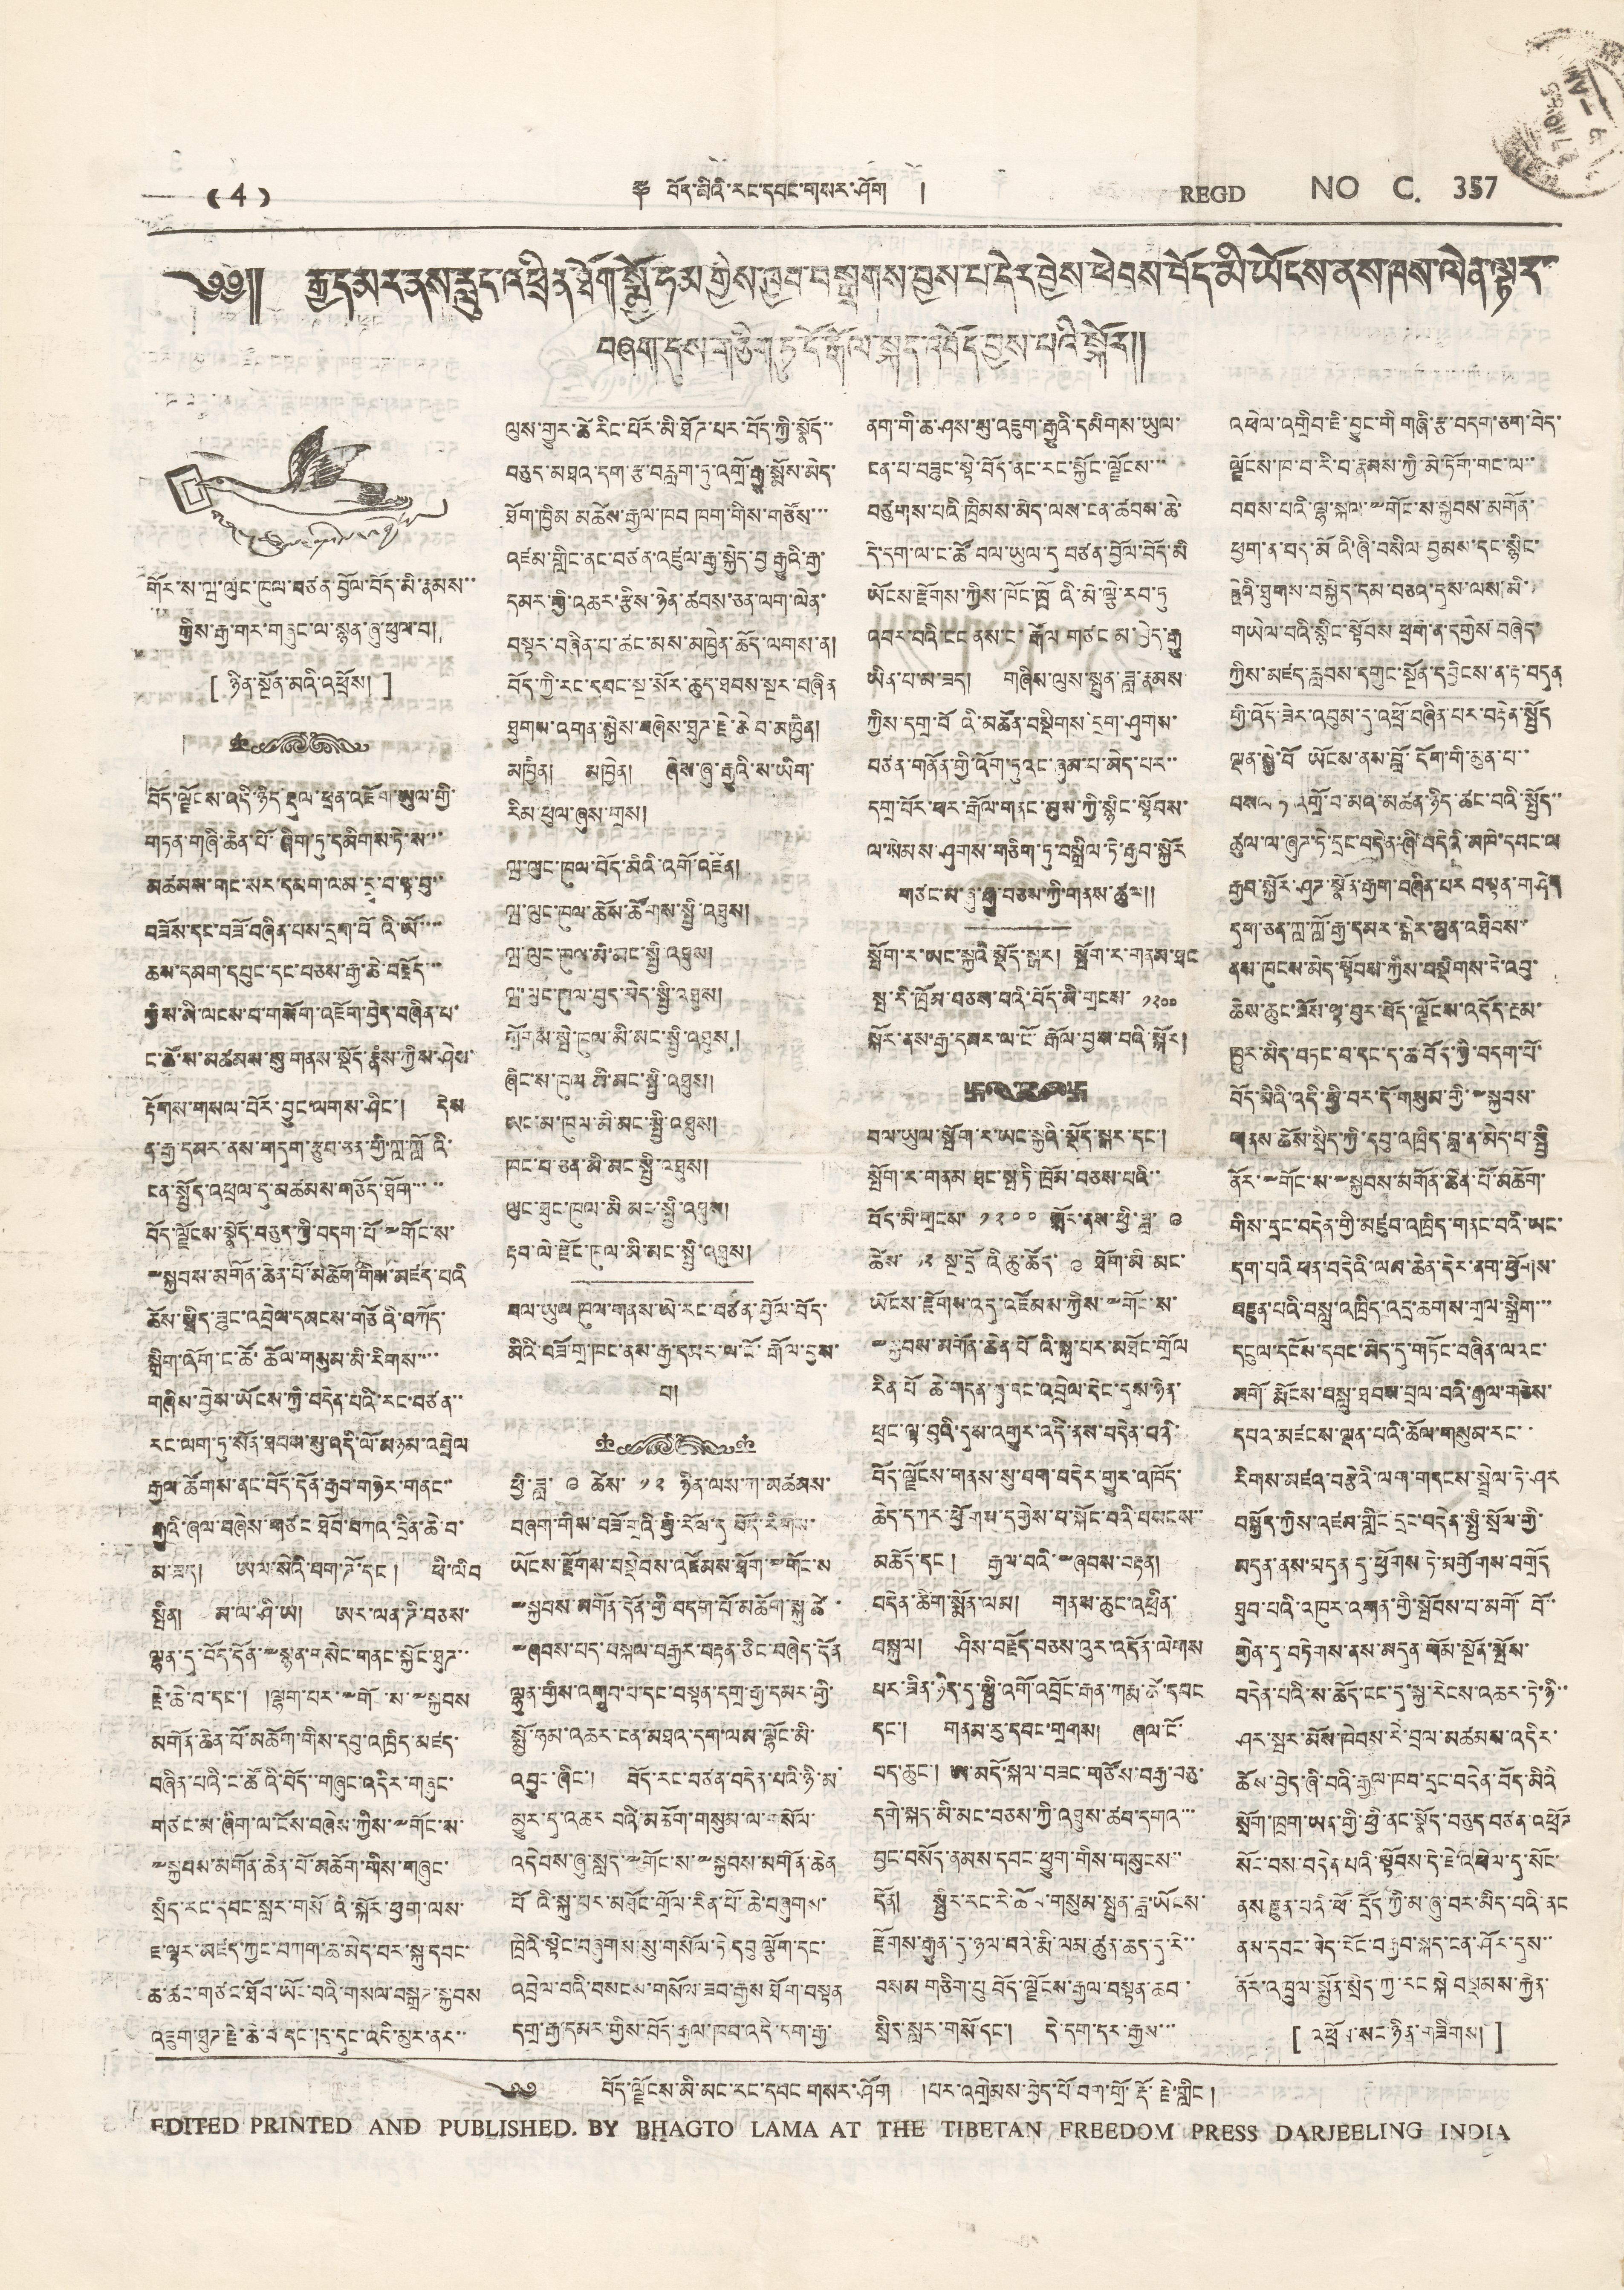(( 4 )) ༈ བོད་མིའི་རང་དབང་གསར་ཤོག ། REGD NO C. 357
༄༅།། རྒྱ་དམར་ནས་རླུང་འཕྲིན་ཐོག་སྨྱོ་ཧམ་གྱེས་ཁྱབ་བསྒྲགས་བྱས་པ་དེར་བྱེས་ཕེབས་བོད་མི་ཡོངས་ནས་ཁས་ལེན་ལྟར་
བཞག་དུས་གཅིག་ཏུ་ངོ་རྒོལ་སྐད་འབོད་བྱས་པའི་སྐོར།།
གནས་ཚུལ་སྤེལ་འབྱོར།
གོར་ས་ཝ་ལུང་ཁུལ་བཙན་བྱོལ་བོད་མི་རྣམས་་
གྱིས་རྒྱ་གར་གཞུང་ལ་སྙན་ཞུ་ཕུལ་བ།།
[ ཉིན་སྔོན་མའི་འཕྲོས། ]
བོད་ལྗོངས་འདི་ཉིད་རྡུལ་ཕྲན་འཇོག་ཡུལ་གྱི་
གཏན་གཞི་ཆེན་པོ་ཞིག་ཏུ་དམིགས་ཏེ་ས་་་
མཚམས་གང་སར་དམག་ལམ་དྲུ་བ་ལྟ་བུ་་
བཟོས་དང་བཟོ་བཞིན་པས་དྲག་པོའི་ཡོ་་་་
ཆས་དམག་དཔུང་དང་བཅས་རྒྱ་ཆེ་བརྗོད་་་
ཀྱིས་མི་ལངས་པ་གསོག་འཇོག་བྱེད་བཞིན་པ་
ང་ཚོ་ས་མཚམས་སུ་གནས་སྡོད་རྣཾས་ཀྱིས་ཤེས་
རྟོགས་གསལ་པོར་བྱུང་ལགས་ཤིང་། དེས
ན་རྒྱ་དམར་ནས་གདུག་རྩུབ་ཅན་གྱི་ཀློ་ཀློའི་
ང་སྤྱོད་འཕྲལ་དུ་མཚམས་གཅོད་ཐོག་་་་་
བོད་ལྗོངས་སྣོད་བཅུད་ཀྱི་བདག་པོ་༸གོང་ས་
༸སྐྱབས་མགོན་ཆེན་པོ་མཆོག་གིས་མཛད་པའི
ཆོས་སྲིད་ཟུང་འབྲེལ་དམངས་གཙོའི་བཀོད་
སྒྲིག་འོག་ང་ཚོ་ཆོལ་གསུམ་མི་རིགས་་་་
གཞིས་བྱེས་ཡོངས་ཀྱི་བདེན་པའི་རང་བཙན་་
རང་ལག་ཏུ་སོན་ཐབས་སུ་འདི་ལོ་མཉམ་འབྲེལ
རྒྱལ་ཚོགས་ནང་བོད་དོན་རྒྱབ་གཉེར་གནང་་
རྒྱུའི་ཞལ་བཞེས་གཙང་ཐོབ་བཀའ་དྲིན་ཆེ་བ་
མ་ཟད། ཨལ་སེའི་བག་ཌོ་དང་། ཕི་ལིབ
སྦིན། མ་ལ་ཤི་ཡ། ཨར་ལན་ཌི་བཅས་
ལྷན་དུ་བོད་དོན་༸སྙན་གསེང་གནང་སྐྱོང་ཐུཌ་་
རྗེ་ཆེ་བ་དང་། །ལྷག་པར་༸གོང་ས་༸སྐྱབས
མགོན་ཆེན་པོ་མཆོག་གིས་དབུ་འཁྲིད་མཛད་
བཞིན་པའི་ང་ཚོའི་བོད་་གཞུང་འདིར་གཞུང་
གཙང་མ་ཞིག་ལ་ངོས་བཞེས་ཀྱིས་༸གོང་ས་
༸སྐྱབས་མགོན་ཆེན་པོ་མཆོག་གིས་གཞུང་
སྲིད་རང་དབང་སླར་གསོའི་སྐོར་ཕྱག་ལས་
ཇ་ལྟར་མཛད་ཀྱང་བཀག་ཆ་མེད་པར་སྐུ་དབང་
ཆ་ཚང་གཙང་ཐོབ་ཡོང་བའི་གསལ་བསྒྲཌ་སྐྱབས
འཇུག་ཐུཌ་རྗེ་ཆེ་བ་དང་།ད་དུང་འདི་མུར་ནར་་
ལུས་གྱུར་ཚེ་རིང་པོར་མི་ཐོཌ་པར་བོད་ཀྱི་སྣོད་་
བཅུད་མཐའ་དག་རྩ་བརླག་ཏུ་འགྲོ་རྒྱུ་སྨོས་མེད་
ཐོག་ཁྱིམ མཚེས་རྒྱལ་ཁབ ཁག་གིས་གཙོས་་་
འཛམ་གླིང་ནང་བཙན་འཛུལ་རྒྱ་སྐྱེད་བྱ རྒྱུའི་རྒྱ་
དམར་གྱི་མཆར་རྩིས་ཉེན་ཚབས་ཅན་ལག་ལེན་
བསྟར་བཞིན་པ་ཚང་མས་མཁྱེན་ཆོད་ལགས་ན།
བོད་ཀྱི་རང་དབང་སྔ་སོར་ཆུད་ཐབས་སྔར་བཞིན
ཐུགས་འགན་སྐྱེས་བཞེས་ཐུཌ་རྗེ་ཆེ་བ་མཁྱེན།
མཁྱེན། མཁྱེན། ཞེས་ཞུ་རྒྱུའི་ས་ཡིག་
རིམ་ཕུལ་ཞུས་གྲས།
ཝ་ལུང་ཁུལ་བོད་མིའི་འགོ་འཛིན།
ཝ་ལུང་ཁུལ་ཆོས་ཚོགས་སྤྱི་འཐུས།
ལྦ་ལུང་ཁུལ་མི་མང་སྤྱི་འཐུས།
ཝ་ལུང་ཁུལ་བྱེད་མེད་སྤྱི་འཐུས།
གྲོགས་སྤེ་ཁུལ་མི་མང་སྤྱི་འཐུས།
ཞིང་ས་ཁུལ མི་མང་སྤྱི་འཐུས།
ཨང་མ་ཁུལ་མི་མང་སྤྱི་འཐུས།
ཁང་བ་ཅན་མི་མང་སྤྱི་འཐུས།
ལུང་ཐུང་ཁུལ་མི མང་སྤྱི་འཐུས།
རྟབ་ལེ་རྫོང་ཁུལ་མི་མང་སྤྱི་འཐུས།
བལ་ཡུལ་ཁུལ་གནས་ཡ་རང་བཙན་བྱོལ་བོད་
མིའི་བཟོ་གྲ་ཁང་ནས་རྒྱ་དམར་ལ་ངོ་རྒོལ་བྱས་
པ།
ཕྱི་ཟླ་ ༩ ཚེས་ ༡༢ ཉིན་ལས་ཀ་མཚམས་
བཞག་གིས་བཟོ་གྲའི་ཕྱི་རོལ་དུ བོད་རིགས་
ཡོངས་རྫོགས་བསྡེབས་འཛོམས་ཐོག་ ༸གོང་ས
༸སྐྱབས་མགོན་དོན་གྱི་བདག་པོ་མཆོག་སྐུ་ཚེ་
༸ཞབས་པད་བསྐལ་བརྒྱར་བརྟན་ཅིང་བཞེད་དོན
ལྷུན་གྱིས་འགྲུབ་པ་དང་བསྟན་དགྲ་རྒྱ་དམར་གྱི་
སྨྱོ་ཧམ་འཆར་ངན་མཐའ་དག་ལམ་ལྷོང་མི་
འབྱུང་ཞིང་། བོད་རང་བཙན་བདེན་པའི་ཉི་མ་
མྱུར་དུ་འཆར བའི་མཆོག་གསུམ་ལ་གསོལ་
འདེབས་ཞུ་སླད་༸གོང་ས་༸སྐྱབས་མགོན་ཆེན་
པོའི་སྐུ་པར་མཐོང་གྲོལ་རིན་པོ་ཆེ་བཞུགས་
ཁྲིའི་སྟེང་བཞུགས་སུ་གསོལ་ཏེ་དབུ ལྕོག་དང་
འབྲེལ་བའི་བསངས་གསོལ་ཟབ་རྒྱས ཐོག་བསྟན
དགྲ་རྒྱ་དམར་གྱིས་བོད་རྒྱལ་ཁབ་འདི་དག་རྒྱ་
ནག་གི་ཆ་ཤས་སུ་འཇུག་རྒྱུའི་དམིགས་ཡུལ་
ངན་པ་བཟུང་སྟེ་བོད་ནང་རང་སྐྱོང་ལྗོངས་་་
བཙུགས་པའི་ཁྲིམས་མེད་ལས་ངན་ཚབས་ཆེ་
དེ་དག་ལ་ང་ཚོ་བལ་ཡུལ་དུ བཙན་བྱོལ་བོད་མི
ཡོངས་རྫོགས་ཀྱིས་ཁོང་ཁྲོའི་མེ་ལྕེ་རབ་ཏུ
འབར་བའི་ངང་ནས་ང་རྒོལ གཙང་མ་བྱེད་རྒྱུ
ཡིན་པ་མ་ཟད། གཞིས་ལུས་སྤུན་ཟླ་རྣམས་
ཀྱིས་དགྲ་བོའི་མཚོན་བསྡིགས དྲག་ཤུགས་
བཙན་གནོན་གྱི་འོག་ཏུའང་ཞུམ་པ་མེད་པར་་
དགྲ་པོར་ཕར་རྒོལ་གནང་མུས་ཀྱི་སྙིང་སྟོབས་
ལ་སེམས་ཤུགས་གཅིག་ཏུ་བསྒྲིལ་ཏེ་རྒྱབ་སྐྱོར
གཙངས་ཞུ་རྒྱུ་བཅས་ཀྱི་གནས་ཚུལ།།
སྤོག་ར་ཡང་སྐྱའི་སྡོད་སྒར། སྤོག་ར་གནས་ཐང
སྤ་རི་ཁྲོམ་བཅས་པའི་བོད་མི་གྲངས་ ༡༢༠༠
སྐོར་ནས་རྒྱ་དམར་ལ་ངོ་རྒོལ་བྱས་པའི་སྐོར།
བལ་ཡུལ་སྤོག་ར་ཡང་སྐྱའི་སྡོད་སྒར་དང་།
སྤོག་ར་གནས་ཐང་སྦ་ཏི་ཁྲོམ་བཅས་པའི་་
བོད་མི་གྲངས་ ༡༢༠༠ སྤོར་ནས་ཕྱི་ཟླ་ ༩
ཚེ་ས་ ༡༢ སྔ་དྲོའི་ཆུ་ཚོད་ ༩ ཐོག་མི་མང་
ཡོངས་རྫོགས་འདུ་འཛོམས་ཀྱིས་༸གོང་ས་
༸སྐྱབས་མགོན་ཆེན་པོའི་སྐུ་པར་མཐོང་གྲོལ
རིན་པོ་ཆེ་གདན་ཞུ་དང་འབྲེལ་དེང་དུས་ཉེན་
ཕྲང་ལྟ་བུའི་དུས་འགྱུར་འདི་ནས་བདེན་བའི་
བོད་ལྗོངས་གནས་སུ་བག་བདེར་གྱུར་འཁོད་
ཆེད་དཀར་ཕྱོགས་དགྱེས་པ་སྐོང་བའི་བསངས་་
མཆོད་དང་། རྒྱལ་བའི་༸ཞབས་བརྟན།
བདེན་ཚིག་སྨོན་ལམ། གནས་ཆུང་འཕྲིན་
བསྐུལ། ཤིས་བརྗོད་བཅས་འུར་འདོན་ལེགས
པར་ཟིན་ཉིད་དུ་སྤྱི་འགོ་འབྲོང་རྒན་ཀརྨ་ཚེ་དབང
དང་། གནམ་རུ་དབང་གྲགས། ཞལ་ངོ་
པད་ཆུང་། ཨ་མདོ་སྐལ་བཟང་གཙོས་བརྒྱ་བཅུ་
དགེ་སྐད་མི་མང་བཅས་ཀྱི་འཐུས་ཚབ་དགའ་་་
བྱང་བསོད་ནམས་དབང་ཕྱུག་གིས་གསུངས་་
དོན། སྤྱིར་རང་རེ་ཆོལ་གསུམ་སྤུན་ཟླ་ཡོངས་
རྫོགས་རྒྱུན་དུ་ཉལ བའི་རྨི་ལམ་ཚུན་ཆད་དུ་རེ་་
བསམ གཅིག་པུ བོད་ལྗོངས་རྒྱལ་བསྟན་ཆབ་
སྲིད་སླར་གསོ་དང་། དེ་དག་དར་རྒྱས་་་
འཕེལ་འགྲིབ་ཇི་བྱུང་གི གཞི་རྩ་བདག་ཅག་བེད་
ལྗོངས་ཁ་བ་རི་བ་རྣམས་ཀྱི་མེ་ཏེག་གང་ལ་་
བབས་པའི་ལྷ་སྐལ་༸གོང་ས་སྐྱབས་མགོན་
ཕྱག་ན་པད་མོའི་ཞི་བསིལ བྱམས་དང་སྙིང་
རྗེའི་ཐུགས་བསྐྱེད་དམ་བཅའ་དུས་ལས་མི་
གཡེལ་བའི་སྙིང་སྙོབས ཕྲག་ན་དགྱེས བཞེད་
ཀྱིས་མཛད་རླབས་དགུང་སྔོན་དབྱིངས་ན་རྟ་བདུན
གྱི་འོད་ཟེར་འབུམ་དུ་འཕྲོ་བཞིན་པར་བརྟེན་སྤྱོད
ལྡན་སྐྱེ་བོ ཡོངས་ནས་བློ་དོག་གི་མུན་པ་་
བསལ་ཏེ་འགྲོ་བ་མའི་མཚན་ཉིད་ཚང་བའི་སྤྱོད་་
ཚུལ་ལ་ཞུཌ་ཏེ་དྲང་བདེན་ཞི་བདེའི་མཁེ་དབང་ལ
རྒྱབ་སྐྱོར་ཤུཌ་སྣོན་རྒྱབ་བཞིན་པར བསྟན་གཤེད་
དུག་ཅན་ཀླ་ཀློ་རྒྱ་དམར་སྒེར་མུན་འཐིབས་
ནས་ཁུངས་མེད་སྟོབས་ཀྱིས་བསྡིགས་ངེ་འབུ་
ཆེས་ཆུང་ཟོས་ལྟ་བུར་བོད་ལྗོངས་འདོད་རྔམ་
ཁྱུར་མིད་བཏང་བ་དང་ད་ཆ་བོད་ཀྱི་བདག་པོ་
བོད་མིའི་འདི་ཕྱི་བར་དོ་གསུམ་གྱི་༸སྐྱབས་
གནས་ཆོས་སྲིད་ཀྱི་དབུ་འཁྲིད་བླ་ན་མེད་པ་སྤྱི
ནོར་༸གོང་ས་༸སྐྱབས་མགོན་ཆེན་པོ་མཆོག་
གིས་དྲང་བདེན་གྱི་མཛུབ་འཁྲིད་གནང་བའི་ཡང་
དག་པའི ཕན་བདེའི་ལམ་ཆེན་དེར་ནག་ཕྱོགས་
བརྫུན་པའི་བསླུ་འཁྲིད་འདྲ་ཆགས་གྲལ་སྒྲིག་་་
དངུལ་དངོས་དབང་མེད་དུ་གཏོང་བཞིན་ལའང་
མགོ་རྨོངས་བསླུ་ཐབས་བྲལ་བའི་རྒྱལ་གཅེས་
དཔའ་མཛངས་ལྡན་པའི་ཆོལ་གསུམ་རང་་
རིགས་མཛའ་བརྩེའི་ལག་གདངས་སྤྲེལ་ཏེ་ཤར
བསྐྱོད་ཀྱིས་འཛམ་གླིང་དྲང་བདེན་སྤྱི་སྲོལ་གྱི་
མདུན་ནས་བདུན་དུ་ཕྱོགས་ཏེ་མགྱོགས་བགྲོད
ཐུབ་པའི་འཁུར་འགན་གྱི་སྤོབས་པ་མགོ་ བོ་་
གྱེན་དུ་གཏེགས་ནས་མདུན་གོམ་སྔོན་སྤོས་
བདེན་པའི་ས་ཆོད་ངང་དུ་སྐྱ་རེངས་འཆར་ཏེ་ཉི་་
ཤར་སྦར་མོས་ཁེབས་རེ་བྲལ་མཚམས་འདིར་
ཆོས་བྱེད་ཞི་བའི་རྒྱལ་ཁབ་དྲང་བདེན་བོད་མིའི
སྲོག་ཁྲག་ཡན་གྱི་ཕྱི་ནང་སྣོད་བཅུད བཙན་འཕྲོཌ
སོང་བས་བདེན་པའི་སྟོབས་དེ་ཇེ་འཕེལ་དུ་སོང་
ནས་རྫུན་པའི་ཕོ་དྲོད་ཀྱི་མ་ཞུ་བར་མིད་པའི་ནང
ནས་དབང་བེད་རོང་བརྒྱབ་སྐད་ངན་ཤོར་དུས་་
ནོར་འཁྲུལ་སྨྱོན་སྲིད་ཀྱི་རང་སྐེ བསྡབས་རྐྱེན་
[ འཕྲོས་སང་ཉིན་གཟིགས། ]
༄༅ བོད་ལྗོངས་མི་མང་རང་དབང་གསར་ཤོག །པར་འགྲེམས་བྱེད་པོ་བག་གྲོ་རྡོ་རྗེ་གླིང་།
EDITED PRINTED AND PUBLISHED. BY BHAGTO LAMA THE THE TIBETAN FREEDOM PRESS DARJEELING INDIA
